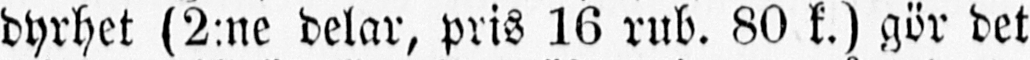dyrhet (2:ne delar, pris 16 rub. 80 k.) gör det
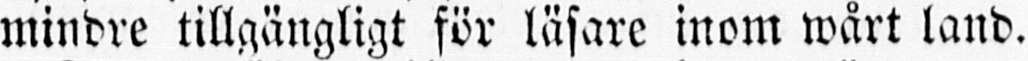mindre tillgängligt för läsare inom wårt land.
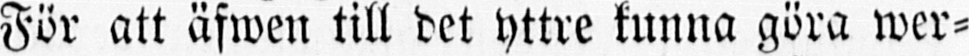För att äfwen till det yttre kunna göra wer-
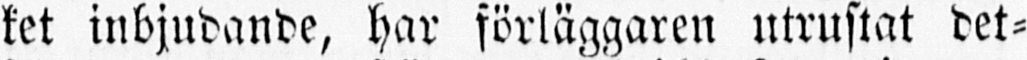ket inbjudande, har förläggaren utrustat det-
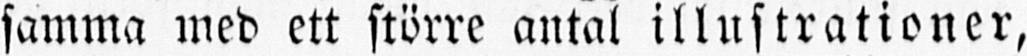samma med ett större antal illustrationer,
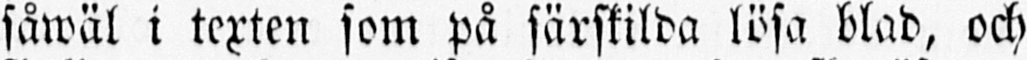såwäl i texten som på särskilda lösa blad, och
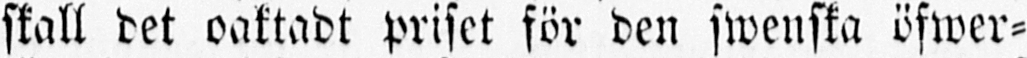skall det oaktadt priset för den swenska öfwer-
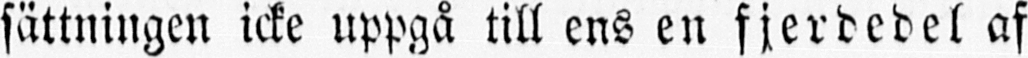sättningen icke uppgå till ens en f jerdedel af
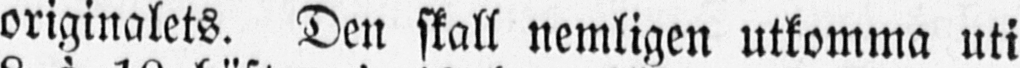originalets. Den skall nemligen utkomma uti
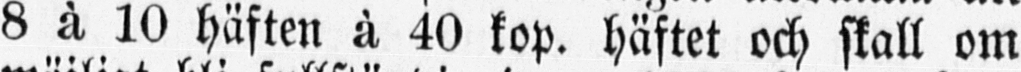8 à 10 häften à 40 kop. häftet och skall om
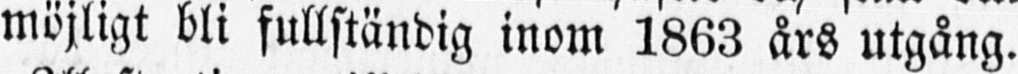möjligt bli fullständig inom 1863 års utgång.
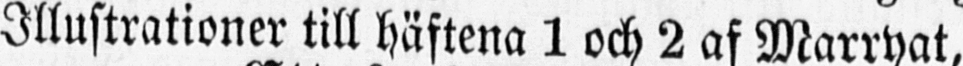Illustrationer till häftena 1 och 2 af Marryat,
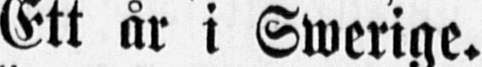Ett år i Swerige.
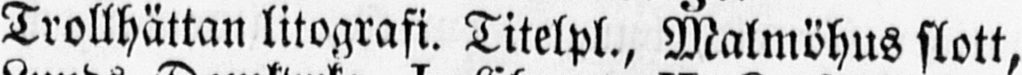Trollhättan litografi. Titelpl., Malmöhus slott,
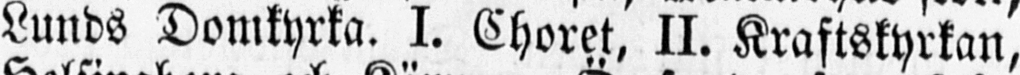Lunds Domkyrka. I. Choret, II. Kraftskyrkan,
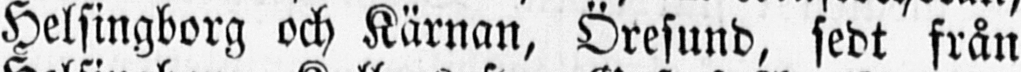Helsingborg och Kärnan, Öresund, fedt från
